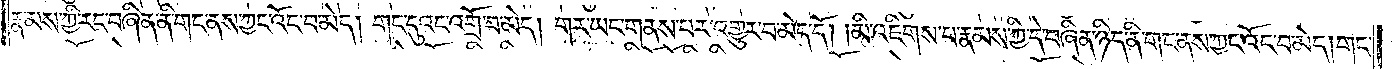རྣམས་ཀྱི་རང་བཞིན་ནི་གང་ནས་ཀྱང་འོང་བ་མེད། གང་དུའང་འགྲོ་བ་མེད། གར་ཡང་གནས་པར་འགྱུར་བ་མེད་དོ། །མི་འཇིགས་པ་རྣམས་ཀྱི་དེ་བཞིན་ཉིད་ནི་གང་ནས་ཀྱང་འོང་བ་མེད། གང་
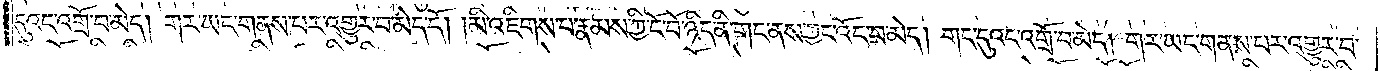དུའང་འགྲོ་བ་མེད། གར་ཡང་གནས་པར་འགྱུར་བ་མེད་དོ། །མི་འཇིགས་པ་རྣམས་ཀྱི་ངོ་བོ་ཉིད་ནི་གང་ནས་ཀྱང་འོང་བ་མེད། གང་དུའང་འགྲོ་བ་མེད། གར་ཡང་གནས་པར་འགྱུར་བ་
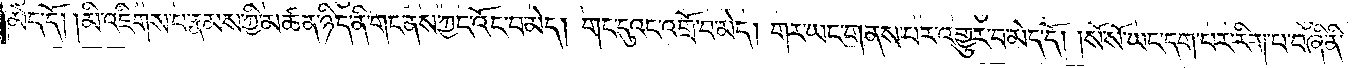མེད་དོ། །མི་འཇིགས་པ་རྣམས་ཀྱི་མཚན་ཉིད་ནི་གང་ནས་ཀྱང་འོང་བ་མེད། གང་དུའང་འགྲོ་བ་མེད། གར་ཡང་གནས་པར་འགྱུར་བ་མེད་དོ། །སོ་སོ་ཡང་དག་པར་རིག་པ་བཞི་ནི་
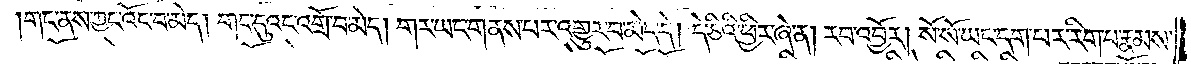གང་ནས་ཀྱང་འོང་བ་མེད། གང་དུའང་འགྲོ་བ་མེད། གར་ཡང་གནས་པར་འགྱུར་བ་མེད་དེ། དེ་ཅིའི་ཕྱིར་ཞེ་ན། རབ་འབྱོར། སོ་སོ་ཡང་དག་པར་རིག་པ་རྣམས་
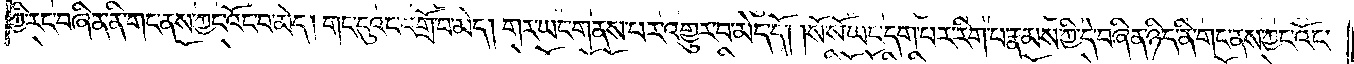ཀྱི་རང་བཞིན་ནི་གང་ནས་ཀྱང་འོང་བ་མེད། གང་དུའང་འགྲོ་བ་མེད། གར་ཡང་གནས་པར་འགྱུར་བ་མེད་དོ། །སོ་སོ་ཡང་དག་པར་རིག་པ་རྣམས་ཀྱི་དེ་བཞིན་ཉིད་ནི་གང་ནས་ཀྱང་འོང་
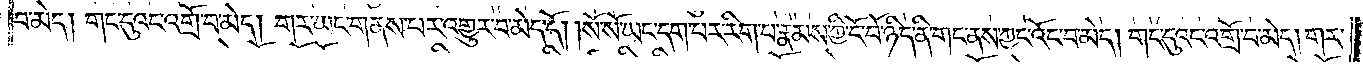བ་མེད། གང་དུའང་འགྲོ་བ་མེད། གར་ཡང་གནས་པར་འགྱུར་བ་མེད་དོ། །སོ་སོ་ཡང་དག་པར་རིག་པ་རྣམས་ཀྱི་ངོ་བོ་ཉིད་ནི་གང་ནས་ཀྱང་འོང་བ་མེད། གང་དུའང་འགྲོ་བ་མེད། གར་
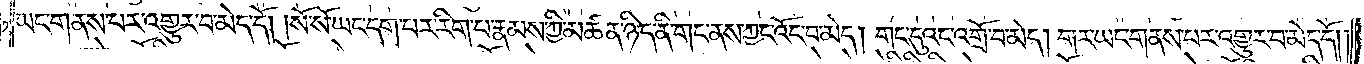ཡང་གནས་པར་འགྱུར་བ་མེད་དོ། །སོ་སོ་ཡང་དག་པར་རིག་པ་རྣམས་ཀྱི་མཚན་ཉིད་ནི་གང་ནས་ཀྱང་འོང་བ་མེད། གང་དུའང་འགྲོ་བ་མེད། གར་ཡང་གནས་པར་འགྱུར་བ་མེད་དོ། །
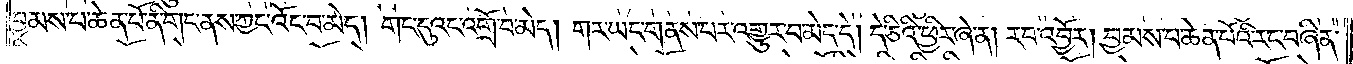བྱམས་པ་ཆེན་པོ་ནི་གང་ནས་ཀྱང་འོང་བ་མེད། གང་དུའང་འགྲོ་བ་མེད། གར་ཡང་གནས་པར་འགྱུར་བ་མེད་དེ། དེ་ཅིའི་ཕྱིར་ཞེ་ན། རབ་འབྱོར། བྱམས་པ་ཆེན་པོའི་རང་བཞིན་
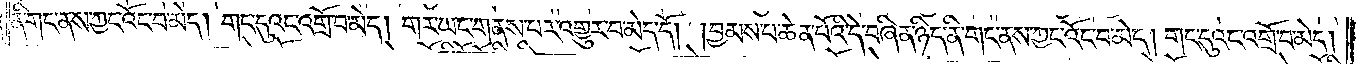ནི་གང་ནས་ཀྱང་འོང་བ་མེད། གང་དུའང་འགྲོ་བ་མེད། གང་ཡང་གནས་པར་འགྱུར་བ་མེད་དོ། །བྱམས་པ་ཆེན་པོའི་དེ་བཞིན་ཉིད་ནི་གང་ནས་ཀྱང་འོང་བ་མེད། གང་དུའང་འགྲོ་བ་མེད།
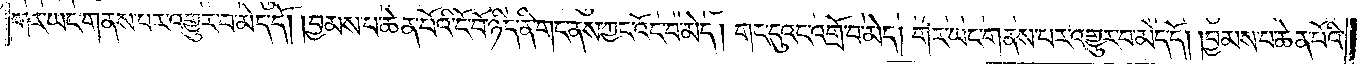གར་ཡང་གནས་པར་འགྱུར་བ་མེད་དོ། །བྱམས་པ་ཆེན་པོའི་ངོ་བོ་ཉིད་ནི་གང་ནས་ཀྱང་འོང་བ་མེད། གང་དུའང་འགྲོ་བ་མེད། གར་ཡང་གནས་པར་འགྱུར་བ་མེད་དོ། །བྱམས་པ་ཆེན་པོའི་
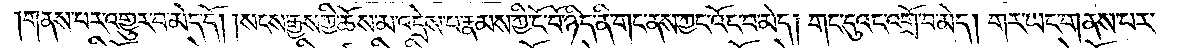གནས་པར་འགྱུར་བ་མེད་དོ། །སངས་རྒྱས་ཀྱི་ཆོས་མ་འདྲེས་པ་རྣམས་ཀྱི་ངོ་བོ་ཉིད་ནི་གང་ནས་ཀྱང་འོང་བ་མེད། གང་དུ་འང་འགྲོ་བ་མེད། གར་ཡང་གནས་པར་
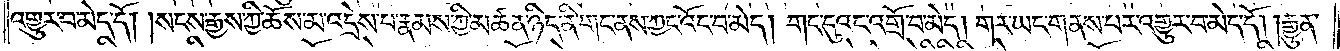འགྱུར་བ་མེད་དོ། །སངས་རྒྱས་ཀྱི་ཆོས་མ་འདྲེས་པ་རྣམས་ཀྱི་མཚན་ཉིད་ནི་གང་ནས་ཀྱང་འོང་བ་མེད། གང་དུའང་འགྲོ་བ་མེད། གར་ཡང་གནས་པར་འགྱུར་བ་མེད་དོ། །རྒྱུན་
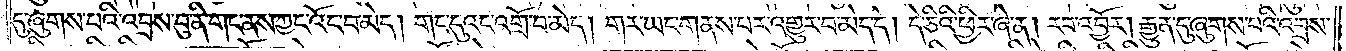དུ་ཞུགས་པའི་འབྲས་བུ་ནི་གང་ནས་ཀྱང་འོང་བ་མེད། གང་དུའང་འགྲོ་བ་མེད། གར་ཡང་གནས་པར་འགྱུར་བ་མེད་དེ། དེ་ཅིའི་ཕྱིར་ཞེ་ན། རབ་འབྱོར། རྒྱུན་དུ་ཞུགས་པའི་འབྲས་
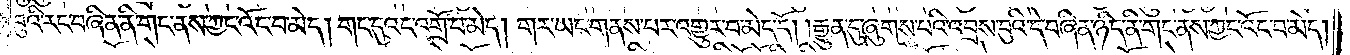བུའི་རང་བཞིན་ནི་གང་ནས་ཀྱང་འོང་བ་མེད། གང་དུའང་འགྲོ་བ་མེད། གར་ཡང་གནས་པར་འགྱུར་བ་མེད་དོ། །རྒྱུན་དུ་ཞུགས་པའི་འབྲས་བུའི་དེ་བཞིན་ཉིད་ནི་གང་ནས་ཀྱང་འོང་བ་མེད།
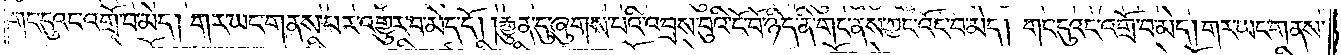གང་དུའང་འགྲོ་བ་མེད། གར་ཡང་གནས་པར་འགྱུར་བ་མེད་དོ། །རྒྱུན་དུ་ཞུགས་པའི་འབྲས་བུའི་ངོ་བོ་ཉིད་ནི་གང་ནས་ཀྱང་འོང་བ་མེད། གང་དུའང་འགྲོ་བ་མེད། གར་ཡང་གནས་
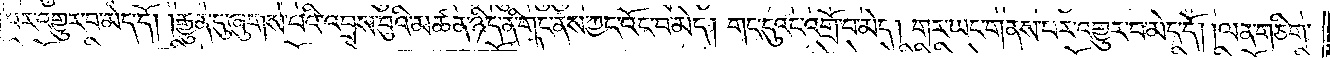པར་འགྱུར་བ་མེད་དོ། །རྒྱུན་དུ་ཞུགས་པའི་འབྲས་བུའི་མཚན་ཉིད་ནི་གང་ནས་ཀྱང་འོང་བ་མེད། གང་དུའང་འགྲོ་བ་མེད། གར་ཡང་གནས་པར་འགྱུར་བ་མེད་དོ། །ལན་ཅིག་
